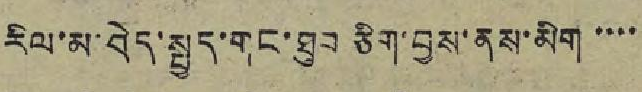རིལ་མ་བེད་སྤྱད་གང་ཐུབ ཅིག་བྱས་ནས་མིག་་་་
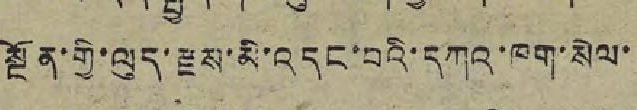སྔོན་གྱི་ལུད་རྫས་མི་འདང་བའི་དཀའ་ཁག་སེལ་
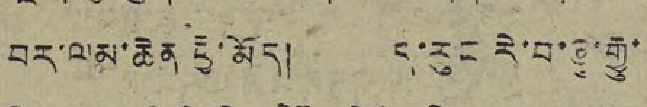བར་ལམ་ཆེན ཕྱི་མོད། ད་རུང རེ་བ་ཞུ་རྒྱུ་
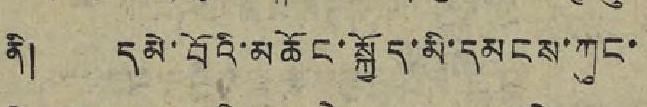ནི། དམེ་བོའི་མཆོང་སྐྱོད་མི་དམངས་ཀུང་
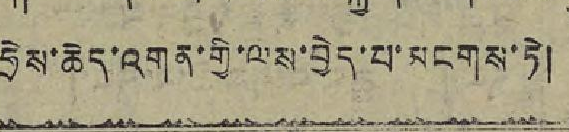ཧྲེས་ཆེད་འགན་གྱི་ལས་བྱེད་པ་མངགས་ཏེ།
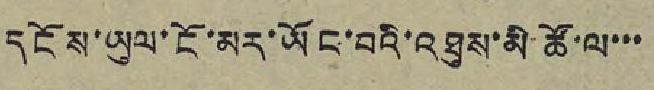དངོས་ཡུལ་ངོ་མར་ཡོང་བའི་འཐུས་མི་ཚོ་ལ་་་
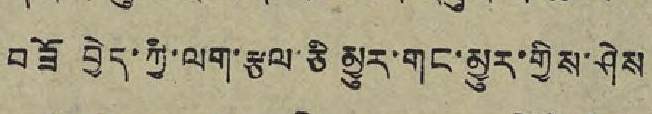བཟོ བྱེད་ཀྱི་ལག་རྩལ་ཅི མྱུར་གང་མྱུར་གྱིས་ཤེས
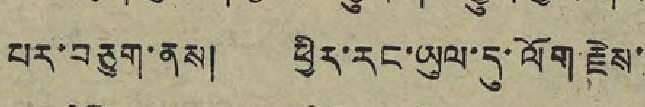པར་བཅུག་ནས། ཕྱིར་རང་ཡུལ་དུ་ལོག རྗེས།
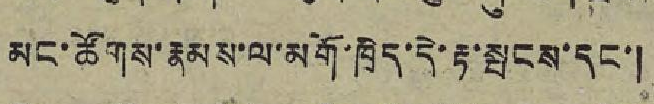མང་ཚོགས་རྣམས་ལ་མགོ་ཁྲིད་དེ་རྟ་སྤངས་དང་།
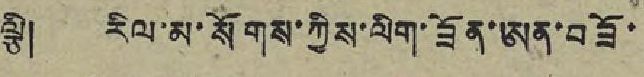ལྕི། རིལ་མ་སོགས་ཀྱིས་ལིག་ཟོན་ཨན་བཟོ་
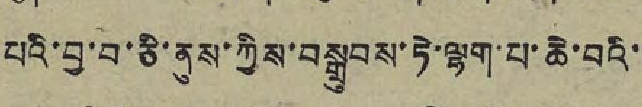པའི་བྱ་བ་ཅི་ནུས་ཀྱིས་བསྒྲུབས་ཏེ་ལྷག་པ་ཆེ་བའི
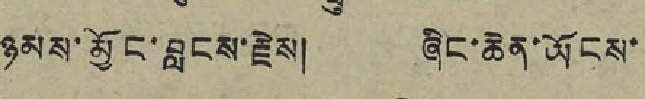ཉམས་མྱོང་བླངས་རྗེས། ཞིང་ཆེན་ཡོངས་
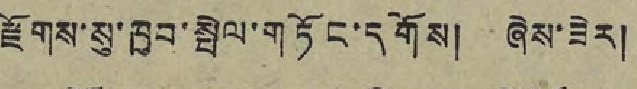རྫོགས་སུ་ཁྱབ་སྤེལ་གཏོང་དགོས། ཞེས་ཟེར།
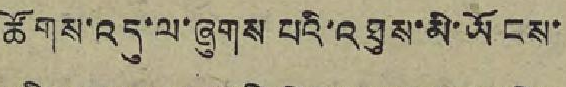ཚོགས་འདུ་ལ་ཞུགས པའི་འཐུས་མི་ཡོངས་
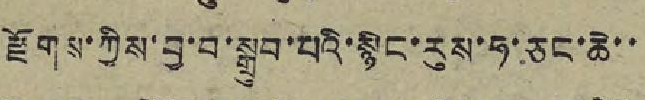རྫོགས་ཀྱིས་བྱ་བ་སྒྲུབ་པའི་སྙིང་རུས་ཧ་ཅང་ཆེ་་
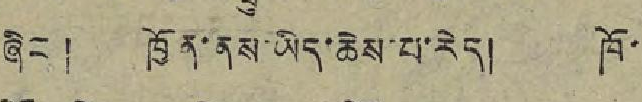ཞིང ། ཁྱོན་ནས་ཡིད་ཆེས་པ་རེད། ཁོ
